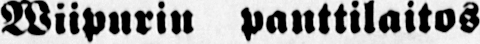Wiipurin panttilaitos
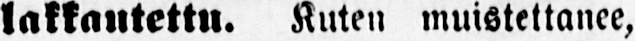lakkautettu. Kuten muistettanee,
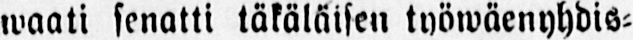waati senatti täkäläisen työwäenyhdis-
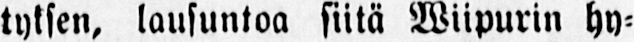tyksen, lausuntoa siitä Wiipurin hy-
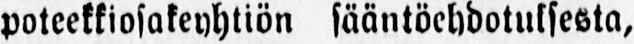poteekkiosakeyhtiön sääntöehdotuksesta,
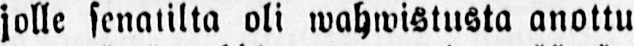jolle senatilta oli wahwistusta anottu
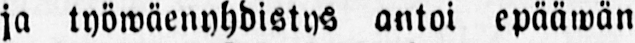ja työwäenyhdistys antoi epääwän
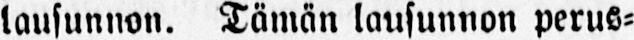lausunnon. Tämän lausunnon perus-
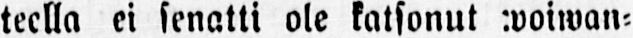teella ei senatti ole katsonut woiwan-
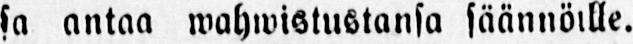sa antaa wahwistustansa säännöille.
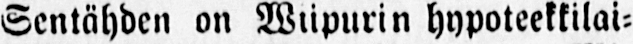Sentähden on Wiipurin hypoteekkilai-
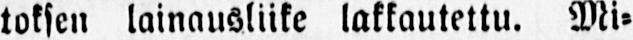toksen lainausliike lakkautettu. Mi-
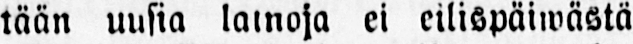tään uusia lainoja ei eilispäiwästä
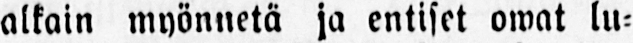alkain myönnetä ja entiset owat lu-
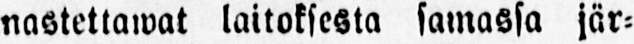nastettawat laitoksesta samassa jär-
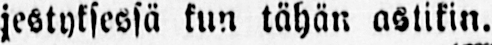jestyksessä kun tähän astikin.
